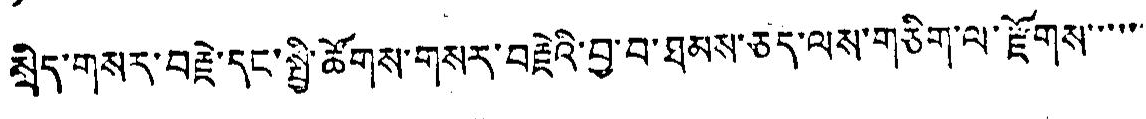སྲིད་གསར་བརྗེ་དང་སྤྱི་ཚོགས་གསར་བརྗེའི་བྱ་བ་ཐམས་ཅད་ལས་གཅིག་ལ་རྫོགས་་་་་་
